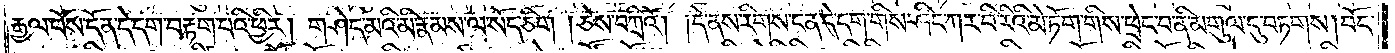རྒྱལ་པོས་དོན་དེ་དག་བརྟག་པའི་ཕྱིར། གཤེད་མའི་མི་རྣམས་ལ་སོད་ཅིག །ཅེས་བཀྲིའོ། །དེ་ནས་རིགས་ངན་དེ་དག་གིས་ཤིང་ཀར་བི་རིའི་མེ་ཏོག་གིས་ཕྲེང་བ་ནི་མགུལ་དུ་བཏགས། བོང་
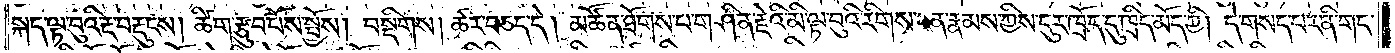སྐད་ལྟ་བུའི་རྔ་བརྡུངས། ཚིག་རྩུབ་པོས་སྤྱོས། བསྡིགས། ཚར་བཅད་དེ། མཚོན་ཐོགས་པ་གཤིན་རྗེའི་མི་ལྟ་བུའི་རིགས་ངན་རྣམས་ཀྱིས་དུར་ཁྲོད་དུ་ཁྲིད་མོད་ཀྱི། དེ་གསད་པར་ནི་གང་
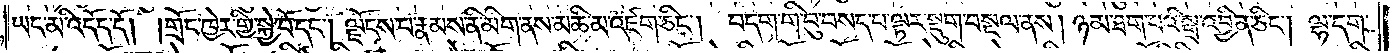ཡང་མི་འདོད་དོ། །གྲོང་ཁྱེར་གྱི་སྐྱེ་བོ་དང༌། ལྗོངས་པ་རྣམས་ནི་མིག་ནས་མཆི་མ་འཛག་ཅིང༌། བདག་གི་བུ་བསད་པ་ལྟར་སྡུག་བསྔལ་ནས། ཉམ་ཐག་པའི་སྒྲ་འབྱིན་ཅིང༌། ལྷ་དག་
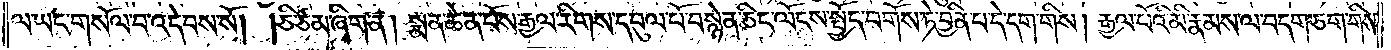ལ་ཡང་གསོལ་པ་འདེབས་སོ། །ཅི་ཙམ་ཞིག་ན། སྨན་ཆེན་པོས་རྒྱལ་རིགས་དབུལ་པོ་བསྙེན་ཅིང་ལོངས་སྤྱོད་བགོས་ཏེ་བྱིན་པ་དེ་དག་གིས། རྒྱལ་པོའི་མི་རྣམས་ལ་བདག་ཅག་གིས་
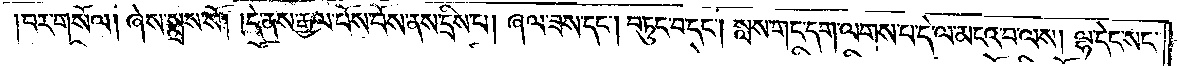བར་གསོལ། ཞེས་སྨྲས་སོ། །དེ་ནས་རྒྱལ་པོས་བོས་ནས་དྲིས་པ། ཞལ་ཟས་དང༌། བཏུང་བ་དང༌། སླས་གང་དག་ལགས་པ་དེ་ལ་མངའ་བ་ལས། ལྷ་དེང་སང་
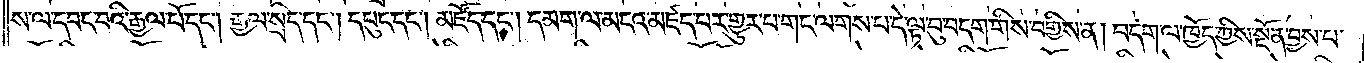ས་ལ་དབང་བའི་རྒྱལ་པོ་དང༌། རྒྱལ་སྲིད་དང༌། དཔུང་དང༌། མཛོད་དང༌། དམག་ལ་མངའ་མཛད་པར་གྱུར་པ་གང་ལགས་པ་དེ་ལྟ་བུ་བདག་གིས་བགྱིས་ན། བདག་ལ་ཁྱོད་ཀྱིས་སྔོན་བྱས་པ་
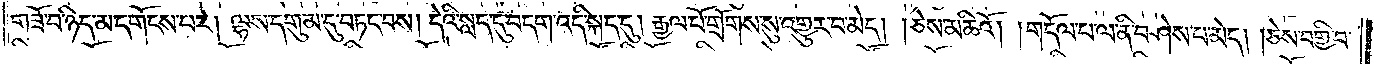གཟོ་བ་ཉིད་མ་དགོངས་པར། ལྷས་དགུམ་དུ་བཏང་བས། དེའི་སླད་དུ་བདག་འདི་སྐད་དུ། རྒྱལ་པོ་གྲོགས་སུ་འགྱུར་བ་མེད། །ཅེས་མཆིའོ། །གདོལ་པ་ལ་ནི་བཤེས་པ་མེད། །ཅེས་བགྱི་བ་
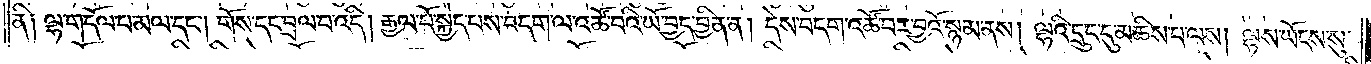ནི༑ ལྷ་གདོལ་བ་མལ་དང༌། གོས་དང་བྲལ་བ་འདི། རྒྱལ་པོ་སྐྱེད་པས་བདག་ལ་འཚོ་བའི་ཡོ་བྱད་བྱིན་ན། དེས་བདག་འཚོ་བར་བྱའོ་སྙམ་ནས། ལྷའི་དྲུང་དུ་མཆིས་པ་ལས། ལྷས་ཡོངས་སུ་
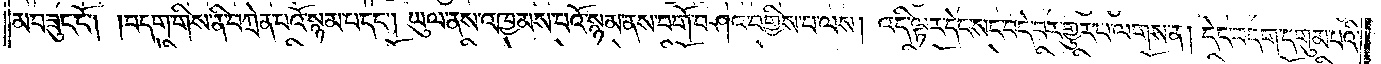མ་བཟུང་ངོ༌། །བདག་གིས་ནི་བཀྲེན་པའོ་སྙམ་པ་དང༌། ཡུལ་ནས་འཁྱམས་པའོ་སྙམ་ནས་བགོ་བཤའ་བགྱིས་པ་ལས། འདི་ལྟར་དེང་སང་བདེ་བར་གྱུར་པ་ལགས་ན། དེང་བདག་དགུམ་པའི་
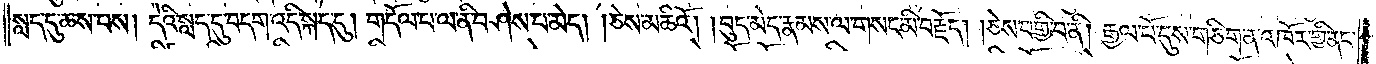སླད་དུ་ཆས་པས། དེའི་སླད་དུ་བདག་འདི་སྐད་དུ། གདོལ་པ་ལ་ནི་བཤེས་པ་མེད། །ཅེས་མཆིའོ། །བུད་མེད་རྣམས་ལ་གསང་མི་བརྗོད། །ཅེས་བགྱི་བ་ནི། རྒྱལ་པོ་དུས་གཅིག་ན་འཁོར་གྱི་ནང་
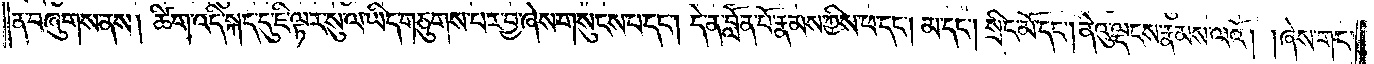ན་བཞུགས་ནས། ཚིག་འདི་སྐད་དུ་ཇི་ལྟར་སུ་ལ་ཡིད་གཅུགས་པར་བྱ་ཞེས་གསུངས་པ་དང༌། དེ་ན་བློན་པོ་རྣམས་ཀྱིས་ཕ་དང༌། མ་དང༌། སྲིང་མོ་དང༌། ནེའུ་ལྡངས་རྣམས་ལའོ། །ཞེས་གང་
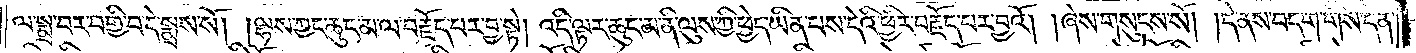ལ་སྨྲ་བར་བགྱི་བ་དེ་སྨྲས་སོ། །ལྷས་ཀྱང་ཆུང་མ་ལ་བརྗོད་པར་བྱ་སྟེ། འདི་ལྟར་ཆུང་མ་ནི་ལུས་ཀྱི་ཕྱེད་ཡིན་པས་དེའི་ཕྱིར་བརྗོད་པར་བྱའོ། །ཞེས་གསུངས་སོ། །དེ་ནས་བདག་གིས་དོན་
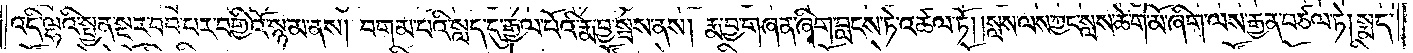འདི་ལྷའི་སྤྱན་སྔར་བབ་པར་བགྱིའོ་སྙམ་ནས། བགམ་པའི་སླད་དུ་རྒྱལ་པོའི་རྨ་བྱ་སྦས་ནས། རྨ་བྱ་གཞན་ཞིག་བླངས་ཏེ་འཚལ་ཏོ། །སླས་ལས་ཀྱང་སླས་ཆེ་གེ་མོ་ཞིག་ལས་རྒྱན་བཙལ་ཏེ། སྨད་
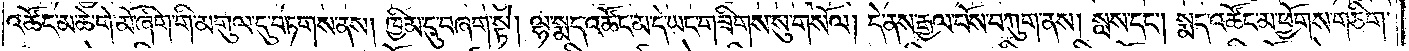འཚོང་མ་ཆེ་གེ་མོ་ཞིག་གི་མགུལ་དུ་བཏགས་ནས། ཁྱིམ་དུ་བཞག་སྟེ། ལྷ་སྨད་འཚོང་མ་དེ་ཡང་གཟིགས་སུ་གསོལ། དེ་ནས་རྒྱལ་པོས་བཀུག་ནས། སླས་དང༌། སྨད་འཚོང་མ་ཕྱོགས་གཅིག་
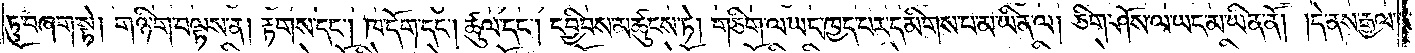ཏུ་བཞག་སྟེ། གཉི་ག་བལྟས་ན། རྟགས་དང༌། ཁ་དོག་དང༌། ཚུལ་དང༌། དབྱིབས་མཚུངས་ཏེ། གཅིག་ལ་ཡང་ཁྱད་པར་དམིགས་པ་མ་ཡིན་ལ། ཅིག་ཤོས་ལ་ཡང་མ་ཡིན་ནོ། །དེ་ནས་རྒྱལ་
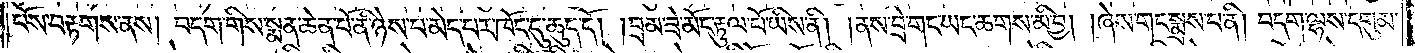པོས་བརྟགས་ནས། བདག་གིས་སྨན་ཆེན་པོ་ནི་ཉེས་པ་མེད་པར་ཁོང་དུ་ཆུད་དོ། །བྲམ་ཟེ་མོང་རྟུལ་པོ་ཡིས་ནི། །ནས་བྲེ་གང་ཡང་ཆགས་མི་བྱ། །ཞེས་གང་སྨྲས་པ་ནི། བདག་ལྷས་དགུམ་
